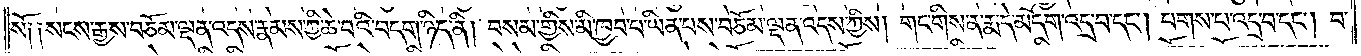སོ༑ ༑སངས་རྒྱས་བཅོམ་ལྡན་འདས་རྣམས་ཀྱི་ཆེ་བའི་བདག་ཉིད་ནི། བསམ་གྱིས་མི་ཁྱབ་པ་ཡིན་པས་བཅོམ་ལྡན་འདས་ཀྱིས། གང་གིས་ན་རྨ་དེ་མདོག་འདྲ་བ་དང༌། པགས་པ་འདྲ་བ་དང༌། བ་
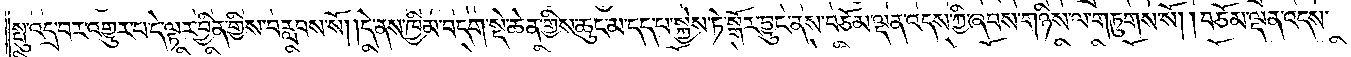སྤུ་འདྲ་བར་འགྱུར་པ་དེ་ལྟར་བྱིན་གྱིས་བརླབས་སོ། །དེ་ནས་ཁྱིམ་བདག་སྡེ་ཆེན་གྱིས་ཆུང་མ་དད་པ་སྐྱེས་ཏེ་སྒོར་བྱུང་ནས་བཅོམ་ལྡན་འདས་ཀྱི་ཞབས་གཉིས་ལ་གཏུགས་སོ། །བཅོམ་ལྡན་འདས་
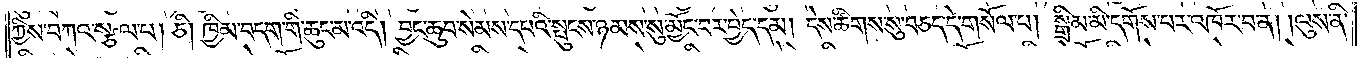ཀྱིས་བཀའ་སྩལ་པ། ཅི། ཁྱིམ་བདག་གི་ཆུང་མ་འདི། བྱང་ཆུབ་སེམས་དཔའི་སྤུངས་ཉམས་སུ་མྱོང་བར་བྱེད་དམ། དེས་ཚིགས་སུ་བཅད་དེ་གསོལ་པ། སྒྲིམ་མི་དགོས་པར་འཁོར་བ་ན། །ལུས་ནི་
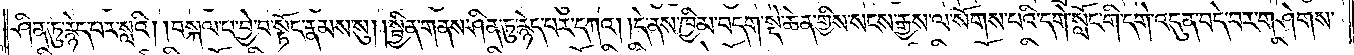ཤིན་ཏུ་རྙེད་པར་སླའི། །བསྐལ་པ་བྱེ་བ་སྟོང་རྣམས་སུ། །སྦྱིན་གནས་ཤིན་ཏུ་རྙེད་པར་དཀའ། །དེ་ནས་ཁྱིམ་བདག་སྡེ་ཆེན་གྱིས་སངས་རྒྱས་ལ་སོགས་པའི་དགེ་སློང་གི་དགེ་འདུན་བདེ་བར་གཤེགས་
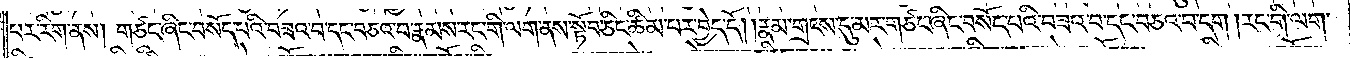པར་རིག་ནས། གཙང་ཞིང་བསོད་པའི་བཟའ་བ་དང་བཅའ་བ་རྣམས་རང་གི་ལག་ནས་སྟོབ་ཅིང་ཚིམ་པར་བྱེད་དོ། །རྣམ་གྲངས་དུ་མར་གཙང་ཞིང་བསོད་པའི་བཟའ་བ་དང་བཅའ་བ་དག །རང་གི་ལག་
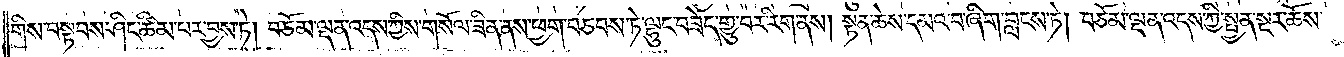གིས་བསྟབས་ཤིང་ཚིམ་པར་བྱས་ཏེ། བཅོམ་ལྡན་འདས་ཀྱིས་གསོལ་ཟིན་ནས་ཕྱག་བཅབས་ཏེ་ལྷུང་བཟེད་གྱུ་བར་རིག་ནས། སྟན་ཆེས་དམའ་བ་ཞིག་བླངས་ཏེ། བཅོམ་ལྡན་འདས་ཀྱི་སྤྱན་སྔར་ཆོས་
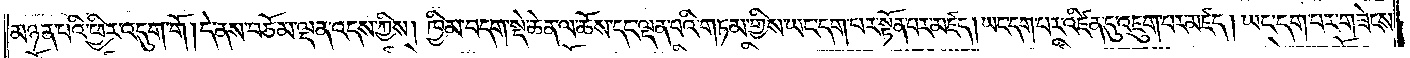མཉན་པའི་ཕྱིར་འདུག་གོ །དེ་ནས་བཅོམ་ལྡན་འདས་ཀྱིས། ཁྱིམ་བདག་སྡེ་ཆེན་ལ་ཆོས་དང་ལྡན་པའི་གཏམ་གྱིས་ཡང་དག་པར་སྟོན་པར་མཛད། ཡང་དག་པར་འཛིན་དུ་འཇུག་པར་མཛད། ཡང་དག་པར་གཟེངས་
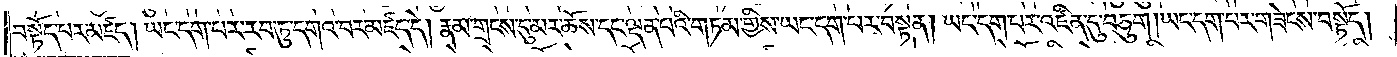བསྟོད་པར་མཛད། ཡང་དག་པར་རབ་ཏུ་དགའ་བར་མཛད་དེ། རྣམ་གྲངས་དུ་མར་ཆོས་དང་ལྡན་པའི་གཏམ་གྱིས་ཡང་དག་པར་བསྟན། ཡང་དག་པར་འཛིན་དུ་བཅུག །ཡང་དག་པར་གཟེངས་བསྟོད།
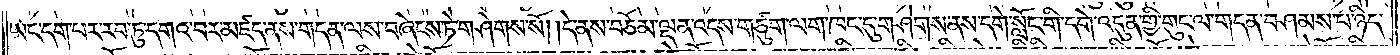ཡང་དག་པར་རབ་ཏུ་དགའ་བར་མཛད་ནས་གདན་ལས་བཞེངས་ཏེ་གཤེགས་སོ། །དེ་ནས་བཅོམ་ལྡན་འདས་གཙུག་ལག་ཁང་དུ་གཤེགས་ནས་དགེ་སློང་གི་དགེ་འདུན་གྱི་གུང་ལ་གདན་བཤམས་པ་ཉིད་
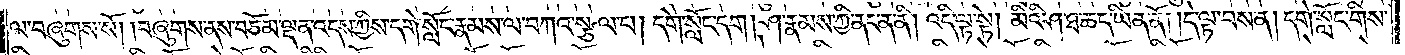ལ་བཞུགས་སོ། །བཞུགས་ནས་བཅོམ་ལྡན་འདས་ཀྱིས་དགེ་སློང་རྣམས་ལ་བཀའ་སྩལ་པ། དགེ་སློང་དག །ཤ་རྣམས་ཀྱི་ནང་ན་ནི། འདི་ལྟ་སྟེ། མིའི་ཤ་ཐ་ཆད་ཡིན་ནོ། །དེ་ལྟ་བས་ན། དགེ་སློང་གིས་
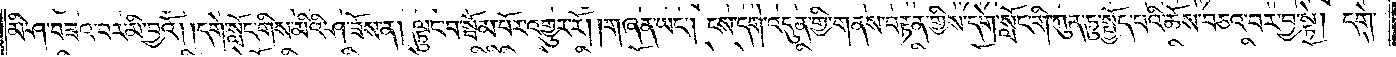མི་ཤ་བཟའ་བར་མི་བྱའོ། །དགེ་སློང་གིས་མིའི་ཤ་ཟོས་ན། ལྟུང་བ་སྤོམ་པོར་འགྱུར་རོ། །གཞན་ཡང༌། ངས་དགེ་འདུན་གྱི་གནས་བརྟན་གྱིས་དགེ་སློང་གི་ཀུན་ཏུ་སྤྱོད་པའི་ཆོས་བཅའ་བར་བྱ་སྟེ། དགེ་
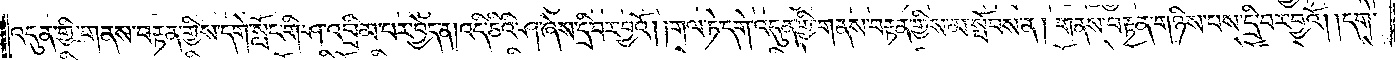འདུན་གྱི་གནས་བརྟན་གྱིས་དགེ་སློང་གི་ཤ་འབྲིམ་པར་བྱེད་ན། འདི་ཅིའི་ཤ་ཞེས་དྲི་བར་བྱའོ། །གལ་ཏེ་དགེ་འདུན་གྱི་གནས་བརྟན་གྱི་གནས་བརྟན་གྱིས་མ་སྤོབས་ན། གནས་བརྟན་གཉིས་པས་དྲི་བར་བྱའོ། །དགེ་
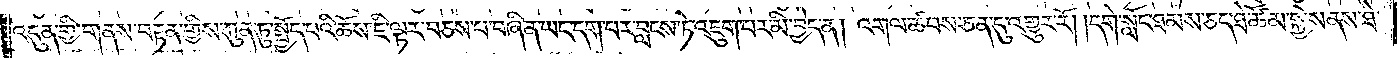འདུན་གྱི་གནས་བརྟན་གྱིས་ཀུན་ཏུ་སྤྱོད་པའི་ཆོས་ཇི་ལྟར་བཅས་པ་བཞིན་ཡང་དག་པར་བླངས་ཏེ་འཇུག་པར་མི་བྱེད་ན། འགལ་ཚབས་ཅན་དུ་འགྱུར་རོ། །དགེ་སློང་ཐམས་ཅད་ཐེ་ཚོམ་སྐྱེས་ནས་ཐེ་
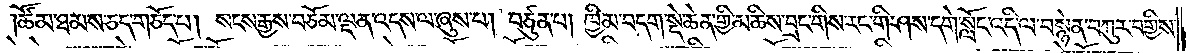ཚོམ་ཐམས་ཅད་གཅོད་པ། སངས་རྒྱས་བཅོམ་ལྡན་འདས་ལ་ཞུས་པ། བཙུན་པ། ཁྱིམ་བདག་སྡེ་ཆེན་གྱི་མཆིས་བྲང་གིས་རང་གི་ཤས་དགེ་སློང་འདི་ལ་བསྙེན་བཀུར་བགྱིས་
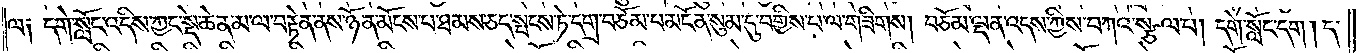ལ༏ དགེ་སློང་འདིས་ཀྱང་སྡེ་ཆེན་མ་ལ་བརྟེན་ནས་ཉོན་མོངས་པ་ཐམས་ཅད་སྤངས་ཏེ་དགྲ་བཅོམ་པ་མངོན་སུམ་དུ་བགྱིས་པ་ལ་གཟིགས། བཅོམ་ལྡན་འདས་ཀྱིས་བཀའ་སྩལ་པ། དགེ་སློང་དག །ད་
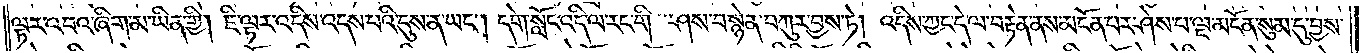ལྟར་འབའ་ཞིག་མ་ཡིན་གྱི། ཇི་ལྟར་འདིས་འདས་པའི་དུས་ན་ཡང༌། དགེ་སློང་འདི་ལ་རང་གི་ཤས་བསྙེན་བཀུར་བྱས་ཏེ། འདིས་ཀྱང་དེ་ལ་བརྟེན་ནས་མངོན་པར་ཤེས་པ་ལྔ་མངོན་སུམ་དུ་བྱས་
